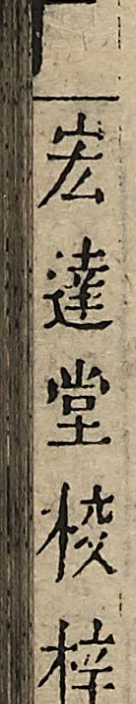藝文類聚
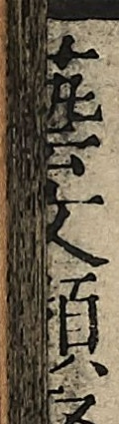天部卷文一
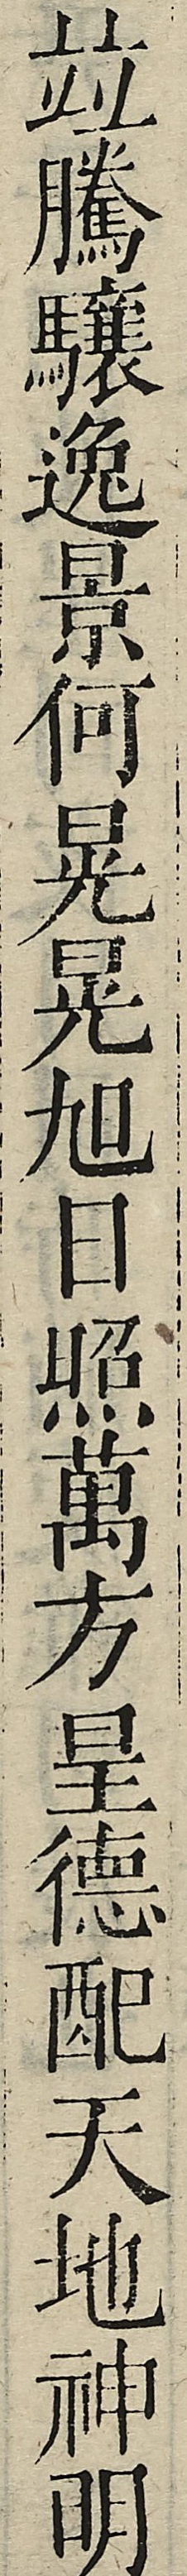並騰驤逸景何晃晃旭日照萬方皇德配天地神明
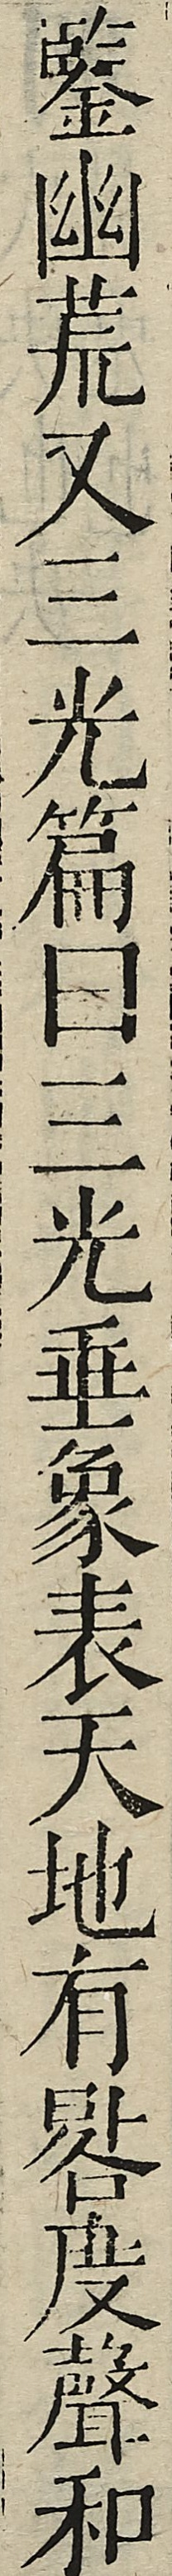鑒幽荒又三光篇曰三光垂象表天地有晷度聲和
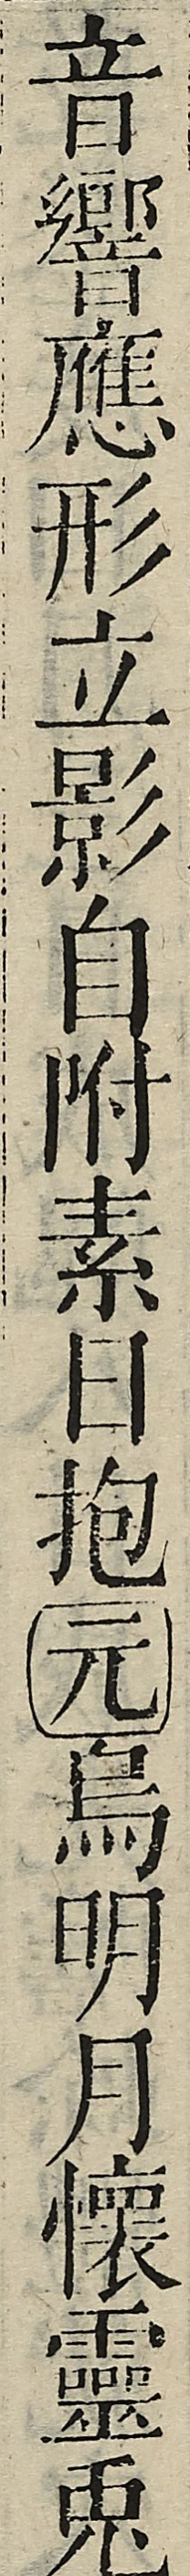音響應形立影自附素日抱元烏明月懷靈兔
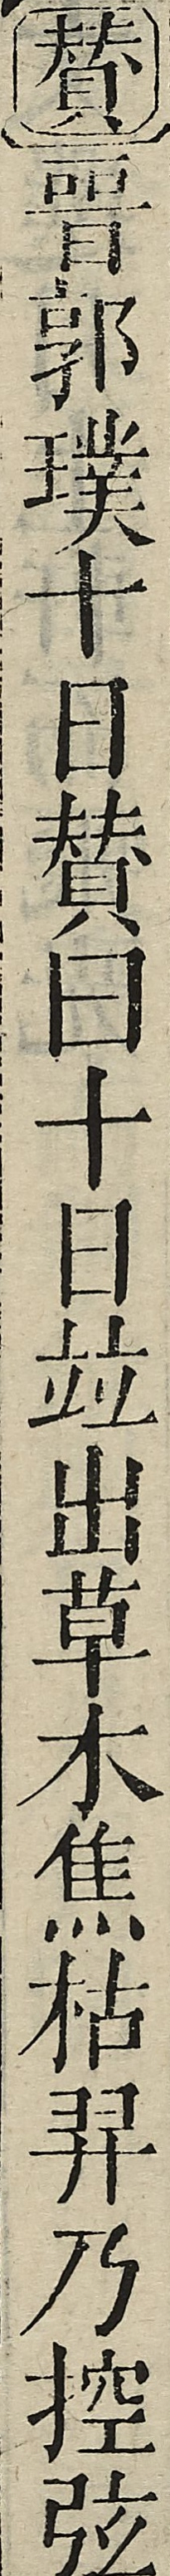贊晉郭璞十日贊曰十日並出草木焦枯羿乃控弦
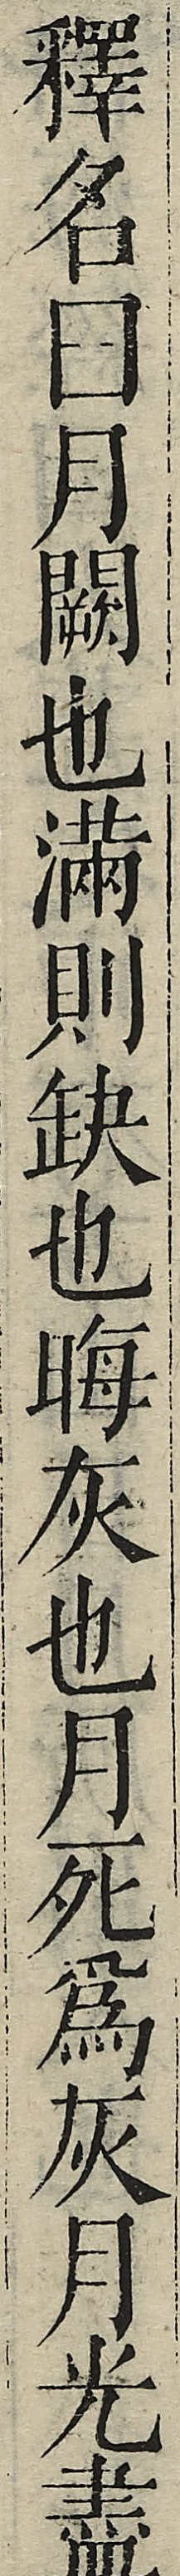釋名曰月闕也滿則缺也晦灰也月死為灰月光盡
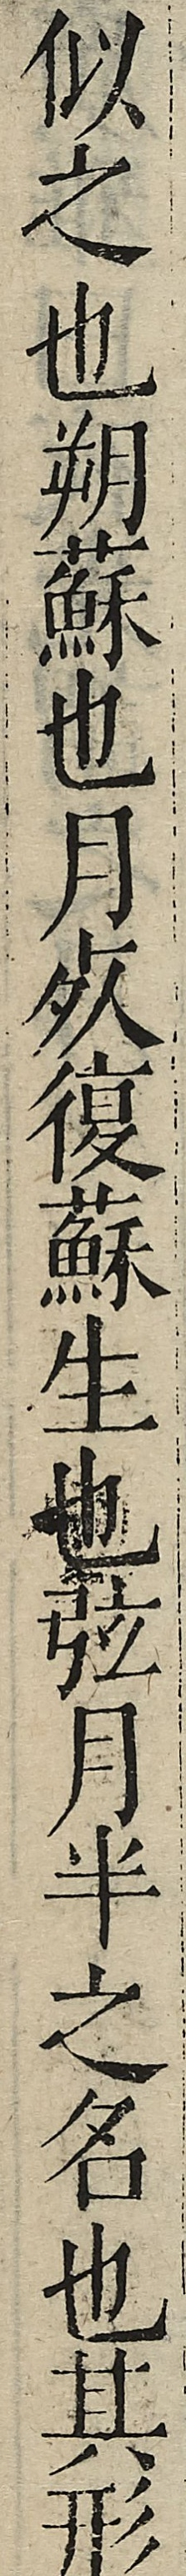似之也朔蘇也月死復蘇生也弦月半之名也其形
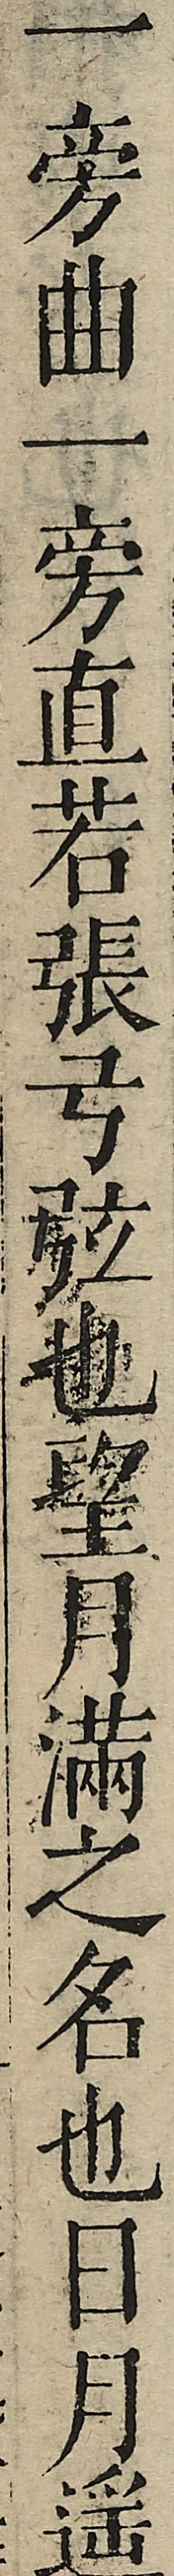一旁曲一旁直若張弓弦也望月滿之名也日月遙
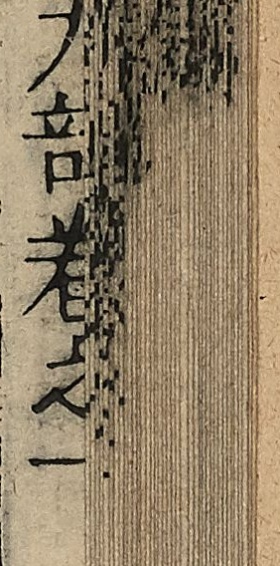天部卷文一
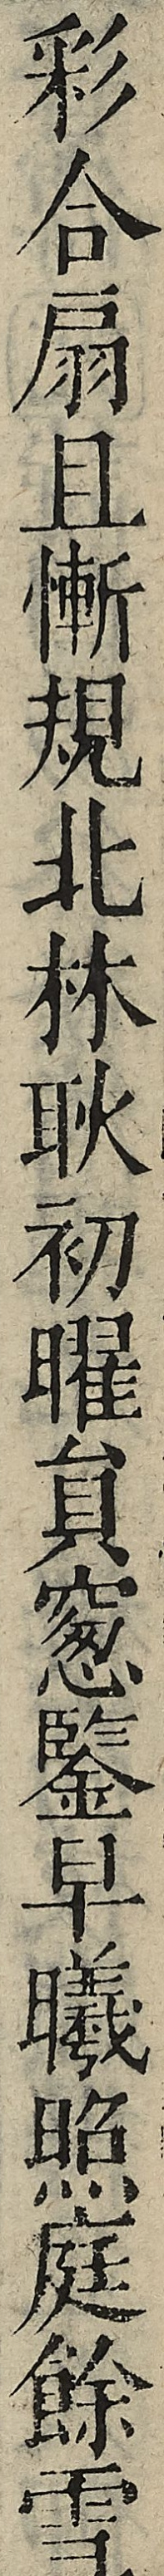彩合扇且慚規北林耿初曜員窻鑒早曦照庭餘雪
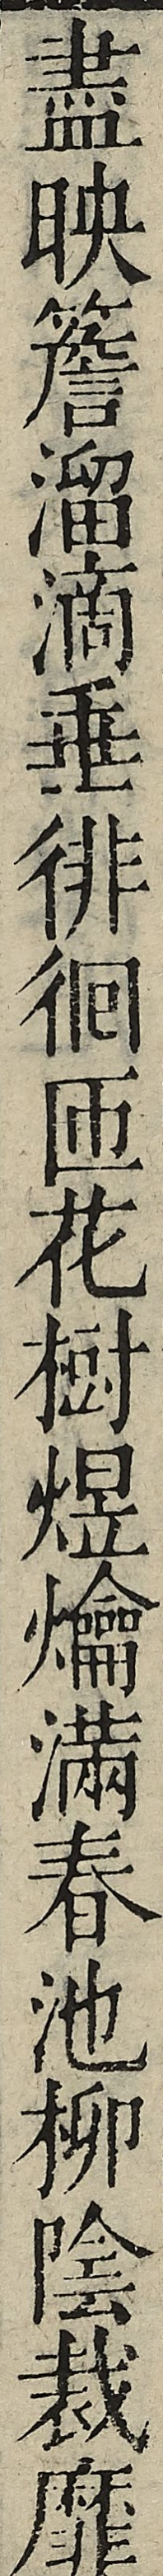盡映簷溜滴垂徘徊匝花樹煜爚滿春池柳陰裁靡
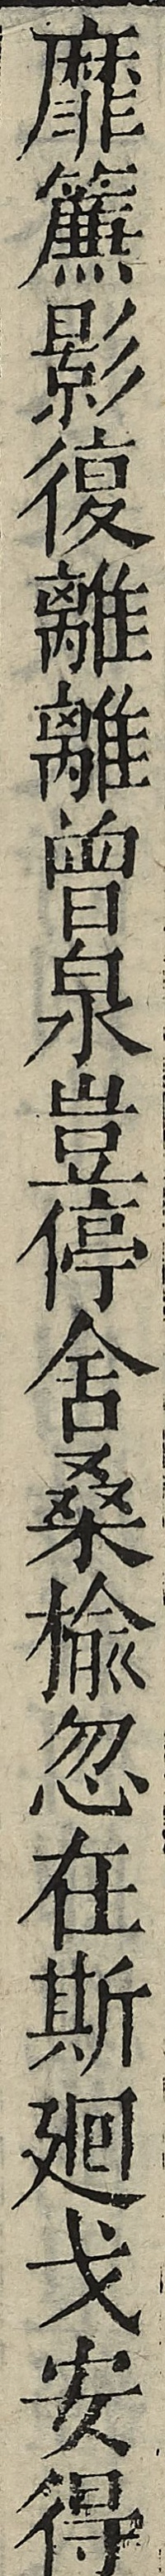靡簾影復離離曾泉豈停舍桑榆忽在斯迴戈安得
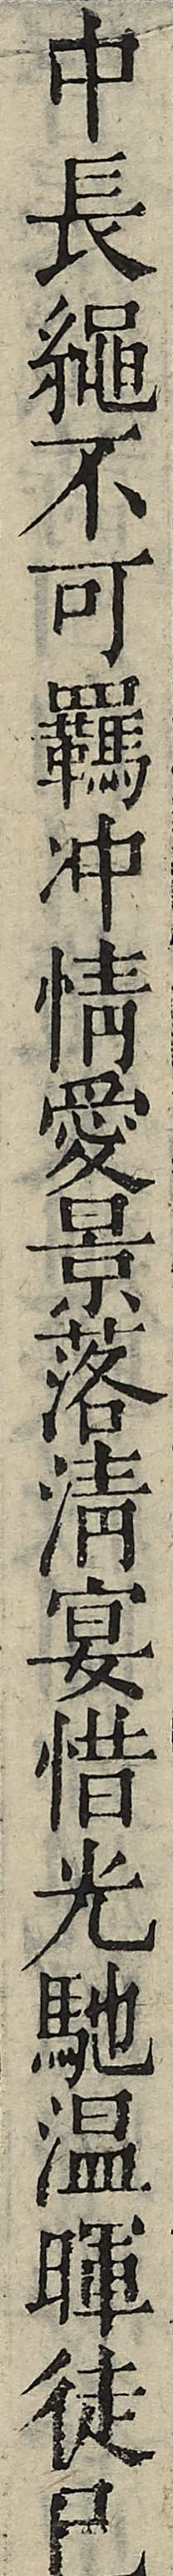中長繩不可羈沖情愛景落清宴惜光馳溫暉徒已
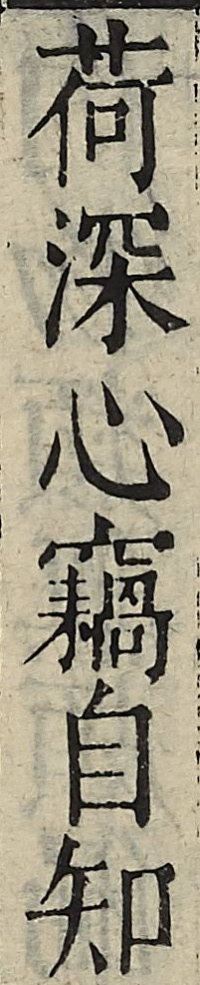荷深心竊自知
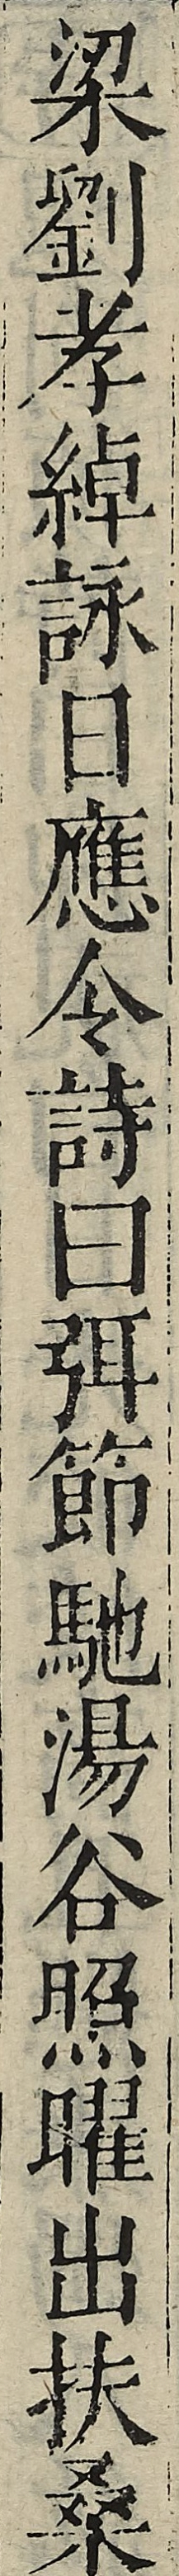梁劉孝綽詠日應令詩曰弭節馳湯谷照曜出扶桑
